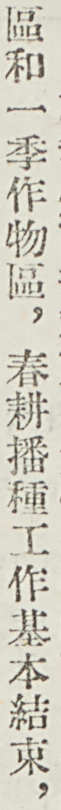區和一季作物區，春耕播種工作基本結束，
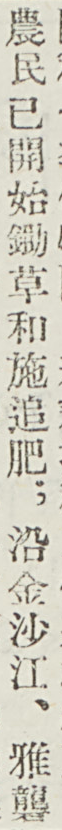農民已開始鋤草和施追肥；沿金沙江、雅礱
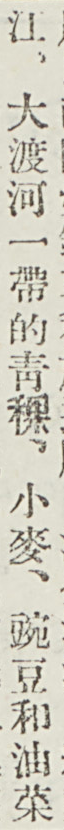江、大渡河一帶的靑稞、小麥、豌豆和油菜
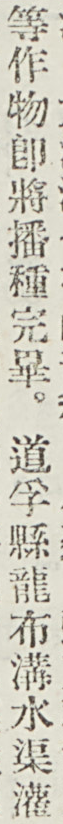等作物卽將播種完畢。道孚縣龍布溝水渠灌
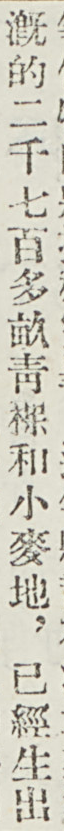溉的二千七百多畝靑稞和小麥地，已經生出
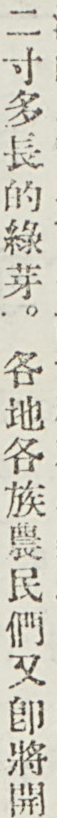二寸多長的綠芽。各地各族農民們又講講開
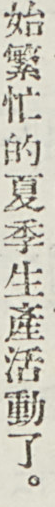始繁忙的夏季生產活動了。
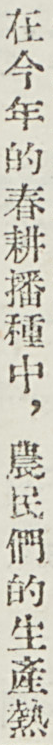在今年的春耕播種中，農民們的生產熱
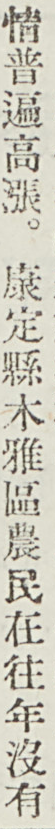情普遍高漲。康定縣木雅區農民在往年沒有
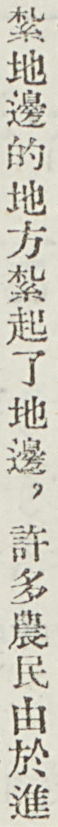紮地邊的地方紮起了地邊，許多農民由於進
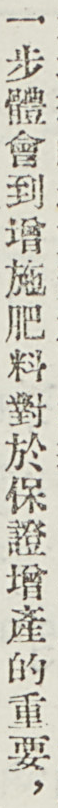一步體會到增施肥料對於保證增產的重要，
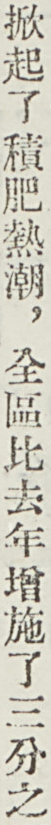掀起了積肥熱潮，全區比去年增施了三分之
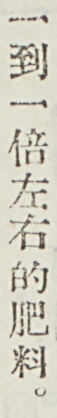一到一倍左右的肥料。
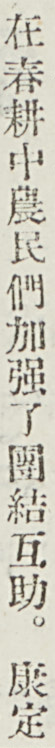在春耕中農民們加強了團結互助。康定
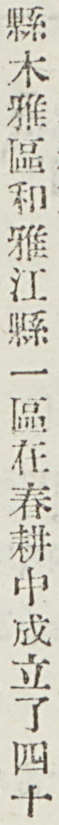縣木雅區和雅江縣一區在春耕中成立了四十
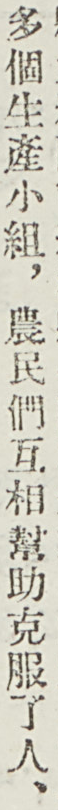多個生產小組，農民們互相幫助克服了人、
